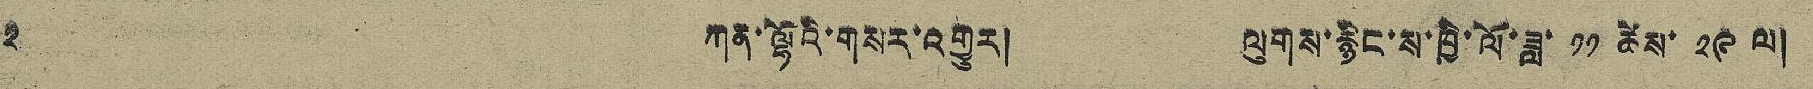༢ ཀན་ལྷོའི་གསར་འགྱུར། ལུགས་རྙིང་ས་ཁྱི་ལོ་ཟླ་ ༡༡ ཚེས་ ༢༩ ལ།
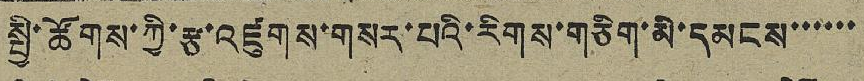སྤྱི་ཚོགས་ཀྱི་རྩ་འཛུགས་གསར་པའི་རིགས་གཅིག་མི་དམངས་་་་་་
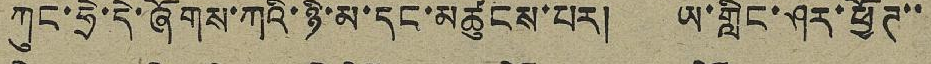ཀུན་ཧྲེ་དེ་ཞོགས་ཀའི་ཉི་མ་དང་མཚུངས་པར། ཡ་གླིང་ཤར་ཕྱོཊ་་
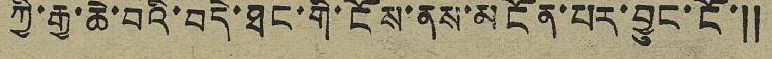ཀྱི་རྒྱ་ཆེ་བའི་བདེ་ཐང་གི་ངོས་ནས་མངོན་པར་བྱུང་ངོ་༎
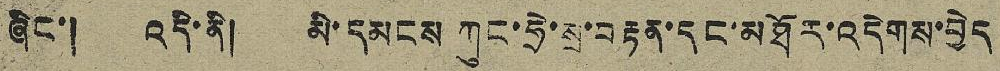ཞིང་། འདི་ནི། མི་དམངས་ཀུན་ཧྲེ་སྲ་བརྟན་དང་མཐོར་འདེགས་བྱེད
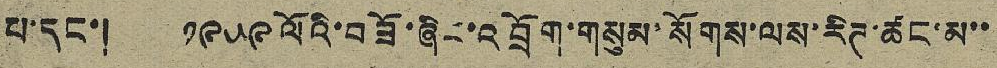པ་དང་། ༡༩༥༩ ལོའི་བཟོ་ཞིང་འབྲོག་གསུམ་སོགས་ལས་རིཊ་ཚང་མ་་
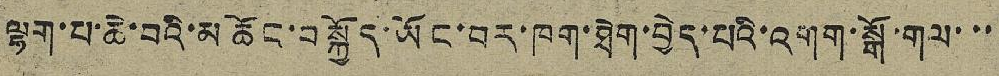ལྷག་པ་ཆེ་བའི་མཆོང་བསྐྱོད་ཡོང་བར་ཁག་ཐེག་བྱེད་པའི་འགག་སྒོ་གལ་་་
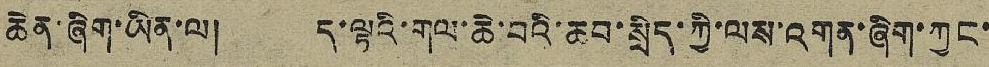ཆེན་ཞིག་ཡིན་ལ། ད་ལྟའི་གལ་ཆེ་བའི་ཆབ་སྲིད་ཀྱི་ལས་འགན་ཞིག་ཀྱང་
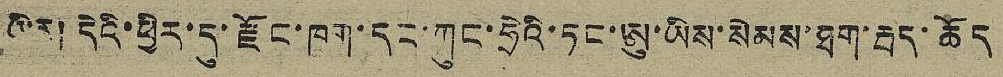ཡིན། དེའི་ཕྱིར་དུ་རྫོང་ཁག་དང་ཀུང་ཧྲེའི་ཏང་ཨུ་ཡིས་སེམས་ཐག་རྦད་ཆོད
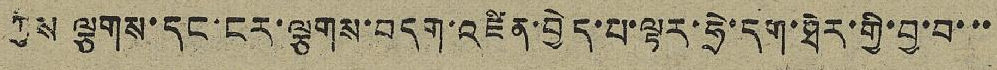ཀྱིས་ལྕགས་དང་ངར་ལྕགས་བདག་འཛིན་བྱེད་པ་ལྟར་ཧྲེ་དག་ཐེར་གྱི་བྱ་བ་་་
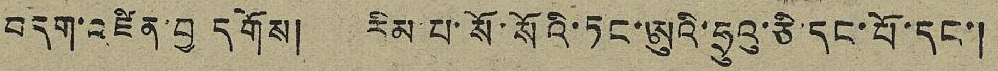བདག་འཛིན་བྱ་དགོས། རིམ་པ་སོ་སོའི་ཏང་ཨུའི་ཧྲུའུ་ཅི་དང་པོ་དང་།
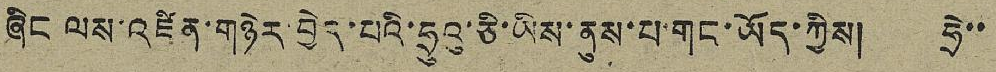ཞིང་ལས་འཛིན་གཉེར་བྱེད་པའི་ཧྲུའུ་ཅི་ཡིས་ནུས་པ་གང་ཡོད་ཀྱིས། ཧྲེ་་
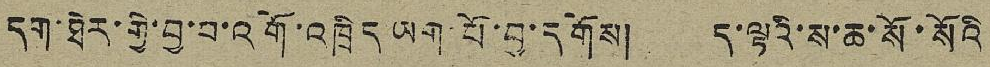དག་ཐེར་གྱི་བྱ་བ་འགོ་འཁྲིད་ཡག་པོ་བྱ་དགོས། ད་ལྟའི་ས་ཆ་སོ་སོའི
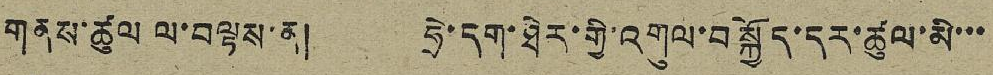གནས་ཚུལ་ལ་བལྟས་ན། ཧྲེ་དག་ཐེར་གྱི་འགུལ་བསྐྱོད་དར་ཚུལ་མི་་་
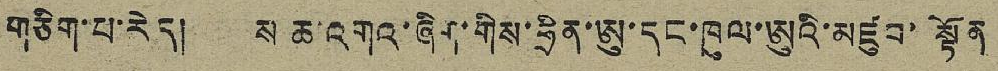གཅིག་པ་རེད། ས་ཆ་འགའ་ཞིག་གིས་ཧྲིན་ཨུ་དང་ཁུལ་ཨུའི་མཛུབ་སྟོན
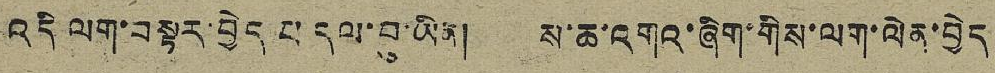འདི་ལག་བསྟར་བྱེད་པ་དལ་བུ་ཡིན། ས་ཆ་འགའ་ཞིག་གིས་ལག་ལེན་བྱེད
